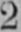2
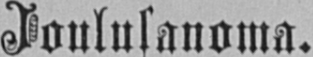Joulusanoma.
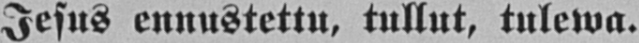Jesus ennustettu, tullut, tulewa.
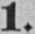1.
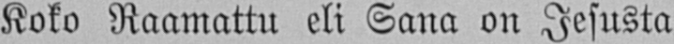Koko Raamattu eli Sana on Jesusta
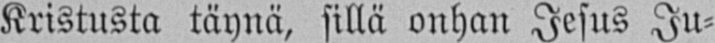Kristusta täynä, sillä onhan Jesus Ju-
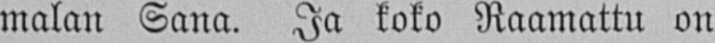malan Sana. Ja koko Raamattu on
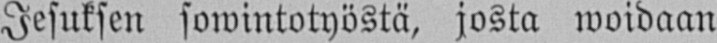Jesuksen sowintotyöstä, josta woidaan
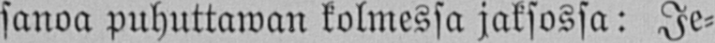sanoa puhuttawan kolmessa jaksossa: Je-
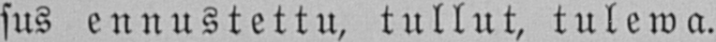sus ennustettu, tullut, tulewa.
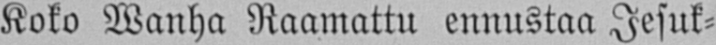Koko Wanha Raamattu ennustaa Jesuk-
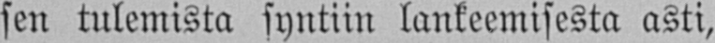sen tulemista syntiin lankeemisesta asti,
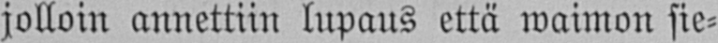jolloin annettiin lupaus että waimon sie-
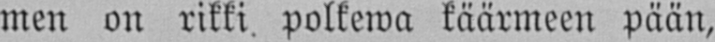men on rikki, polkewa käärmeen pään,
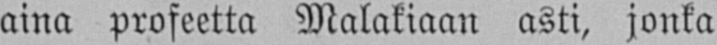aina profeetta Malakiaan asti, jonka
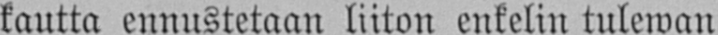kautta ennustetaan liiton enkelin tulewan
